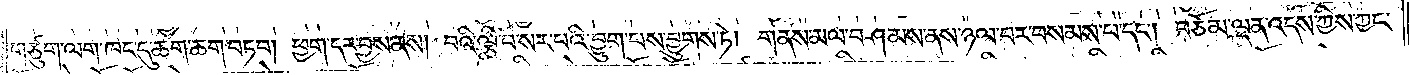གཙུག་ལག་ཁང་དུ་ཆག་ཆག་བཏབ། ཕྱག་དར་བྱས་ནས། བའི་ལྕི་བ་སར་པའི་བྱུག་པས་བྱུགས་ཏེ། གནས་མལ་བཤམས་ནས་ཉལ་བར་བསམས་པ་དང༌། བཅོམ་ལྡན་འདས་ཀྱིས་ཀྱང་
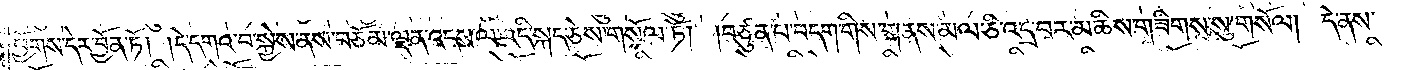ཕྱོགས་དེར་བྱོན་ཏོ། །དེ་དགའ་བ་སྐྱེས་ནས་བཅོམ་ལྡན་འདས་ལ་འདི་སྐད་ཅེས་གསོལ་ཏོ། །བཙུན་པ་བདག་གིས་གནས་མལ་ཅི་འདྲ་བར་མཆིས་གཟིགས་སུ་གསོལ། དེ་ནས་
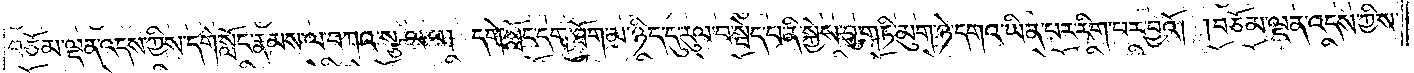བཅོམ་ལྡན་འདས་ཀྱིས་དགེ་སློང་རྣམས་ལ་བཀའ་སྩལ་པ། དགེ་སློང་དག་ཐོག་མ་ཉིད་དུ་རུལ་བ་སྦེད་པ་ནི་སྐྱེས་བུ་གཏི་མུག་ཉེ་དགའ་ཡིན་པར་རིག་པར་བྱའོ། །བཅོམ་ལྡན་འདས་ཀྱིས་
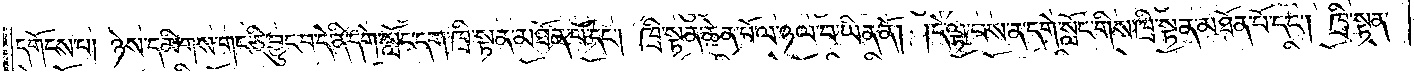དགོངས་པ། ཉེས་དམིགས་གང་ཅི་བྱུང་བ་དེ་ནི་དགེ་སློང་དག་ཁྲི་སྟན་མཐོན་པོ་དང༌། ཁྲི་སྟན་ཆེན་པོ་ལ་ཉལ་བ་ཡིན་ནོ། །དེ་ལྟ་བས་ན་དགེ་སློང་གིས་ཁྲི་སྟན་མཐོན་པོ་དང༌། ཁྲི་སྟན་
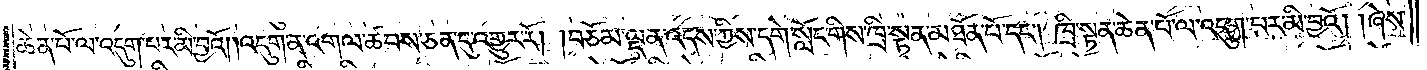ཆེན་པོ་ལ་འདུག་པར་མི་བྱའོ། །འདུག་ན་འགལ་ཚབས་ཅན་དུ་འགྱུར་རོ། །བཅོམ་ལྡན་འདས་ཀྱིས་དགེ་སློང་གིས་ཁྲི་སྟན་མཐོན་པོ་དང༌། ཁྲི་སྟན་ཆེན་པོ་ལ་འདུག་པར་མི་བྱའོ། །ཞེས་
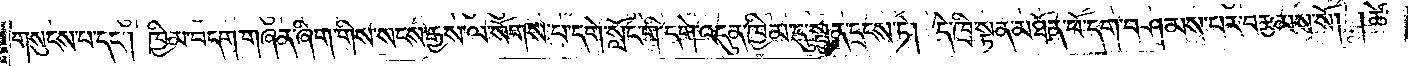གསུངས་པ་དང༌། ཁྱིམ་བདག་གཞན་ཞིག་གིས་སངས་རྒྱས་ལ་སོགས་པ་དགེ་སློང་གི་དགེ་འདུན་ཁྱིམ་དུ་སྤྱན་དྲངས་ཏེ། དེ་ཁྲི་སྟན་མཐོན་པོ་དག་བཤམས་པར་བརྩམས་སོ། །ཚེ་
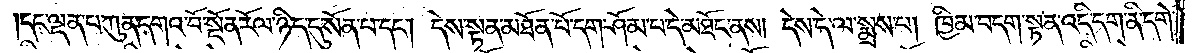དང་ལྡན་པ་ཀུན་དགའ་བོ་སྔོན་རོལ་ཉིད་དུ་སོན་པ་དང༌། དེས་སྟན་མཐོན་པོ་དག་ཤོམ་པ་དེ་མཐོང་ནས། དེས་དེ་ལ་སྨྲས་པ། ཁྱིམ་བདག་སྟན་འདི་དག་ནི་དགེ་
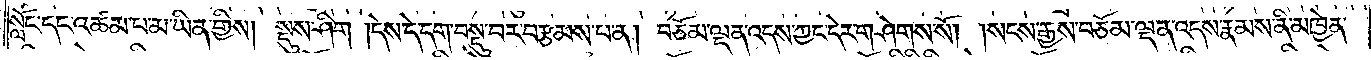སློང་དང་འཚམ་པ་མ་ཡིན་གྱིས། སྡུས་ཤིག །དེས་དེ་དག་བསྡུ་བར་བརྩམས་པ་ན། བཅོམ་ལྡན་འདས་ཀྱང་དེར་གཤེགས་སོ། །སངས་རྒྱས་བཅོམ་ལྡན་འདས་རྣམས་ནི་མཁྱེན་
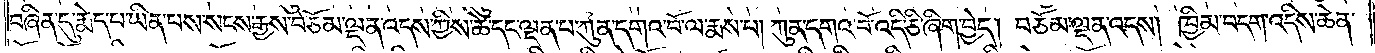བཞིན་དུ་རྨེད་པ་ཡིན་པས་སངས་རྒྱས་བཅོམ་ལྡན་འདས་ཀྱིས་ཚེ་དང་ལྡན་པ་ཀུན་དགའ་བོ་ལ་རྨས་པ། ཀུན་དགའ་བོ་འདི་ཅི་ཞིག་བྱེད། བཅོམ་ལྡན་འདས། ཁྱིམ་བདག་འདིས་ཆེན་
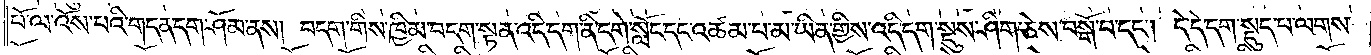པོ་ལ་འོས་པའི་གདན་དག་ཤོམ་ནས། བདག་གིས་ཁྱིམ་བདག་སྟན་འདི་དག་ནི་དགེ་སློང་དང་འཚམ་པ་མ་ཡིན་གྱིས་འདི་དག་སྡུས་ཤིག་ཅེས་བསྒོ་བ་དང༌། དེ་དེ་དག་སྡུད་པ་ལགས་
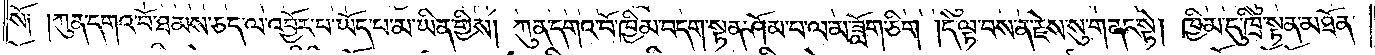སོ༑ །ཀུན་དགའ་བོ་ཐམས་ཅད་ལ་འབྱོར་པ་ཡོད་པ་མ་ཡིན་གྱིས། ཀུན་དགའ་བོ་ཁྱིམ་བདག་སྟན་ཤོམ་པ་ལ་མ་ཟློག་ཅིག །དེ་ལྟ་བས་ན་རྗེས་སུ་གནང་སྟེ། ཁྱིམ་དུ་ཁྲི་སྟན་མཐོན་
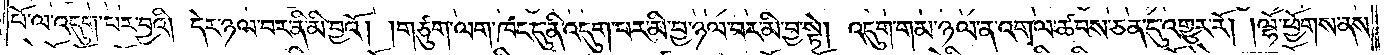པོ་ལ་འདུག་པར་བྱའི། དེར་ཉལ་བར་ནི་མི་བྱའོ། །གཙུག་ལག་ཁང་དུ་ནི་འདུག་པར་མི་བྱ་ཉལ་བར་མི་བྱ་སྟེ། འདུག་གམ་ཉལ་ན་འགལ་ཚབས་ཅན་དུ་འགྱུར་རོ།    །ལྷོ་ཕྱོགས་ནས་
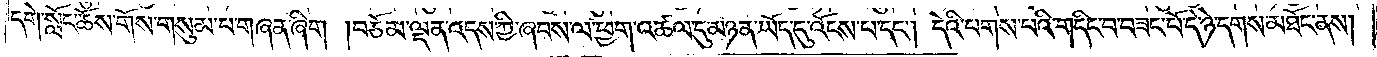དགེ་སློང་ཆོས་གོས་གསུམ་པ་གཞན་ཞིག །བཅོམ་ལྡན་འདས་ཀྱི་ཞབས་ལ་ཕྱག་འཚལ་དུ་མཉན་ཡོད་དུ་འོངས་པ་དང༌། དེའི་པགས་པའི་གདིང་བ་བཟང་པོ་དེ་ཉེ་དགས་མཐོང་ནས།
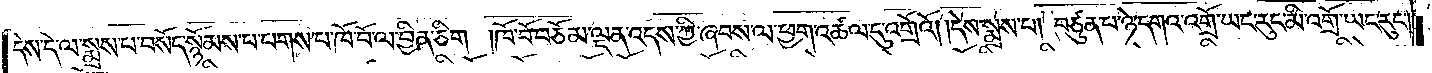དེས་དེ་ལ་སྨྲས་པ་བསོད་སྙོམས་པ་པགས་པ་ཁོ་བོ་ལ་བྱིན་ཅིག །ཁོ་བོ་བཅོམ་ལྡན་འདས་ཀྱི་ཞབས་ལ་ཕྱག་འཚལ་དུ་འགྲོའོ། །དེས་སྨྲས་པ། བཙུན་པ་ཉེ་དགའ་འགྲོ་ཡང་རུང་མི་འགྲོ་ཡང་རུང༌།
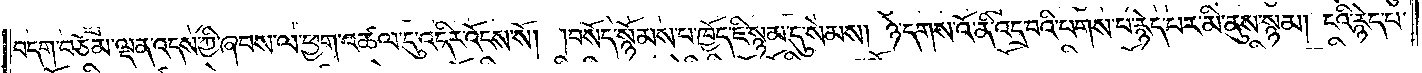བདག་བཅོམ་ལྡན་འདས་ཀྱི་ཞབས་ལ་ཕྱག་འཚལ་དུ་འདིར་འོངས་སོ། །བསོད་སྙོམས་པ་ཁྱོད་ཇི་སྙམ་དུ་སེམས། ཉེ་དགས་འོ་ནི་འདྲ་བའི་པགས་པ་རྙེད་པར་མི་ནུས་སྙམ། ངའི་རྙེད་པ་
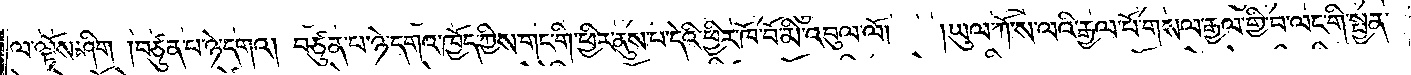ལ་ལྟོས་ཤིག །བཙུན་པ་ཉེ་དགའ། བཙུན་པ་ཉེ་དགའ་ཁྱོད་ཀྱིས་གང་གི་ཕྱིར་ནུས་པ་དེའི་ཕྱིར་ཁོ་བོ་མི་འབུལ་ལོ།<gap>།ཡུལ་ཀོ་ས་ལའི་རྒྱལ་པོ་གསལ་རྒྱལ་གྱི་བ་ལང་གི་སྤྱན་
